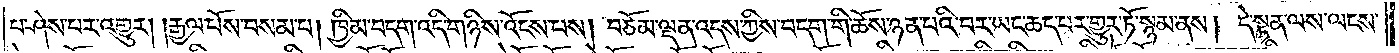པ་ཤེས་པར་འགྱུར། །རྒྱལ་པོས་བསམ་པ། ཁྱིམ་བདག་འདི་གཉིས་འོངས་པས། བཅོམ་ལྡན་འདས་ཀྱིས་བདག་གི་ཆོས་ཉན་པའི་བར་ཡང་ཆད་པར་གྱུར་ཏོ་སྙམ་ནས། དེ་སྟན་ལས་ལངས་
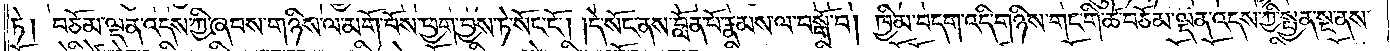ཏེ། བཅོམ་ལྡན་འདས་ཀྱི་ཞབས་གཉིས་ལ་མགོ་བོས་ཕྱག་བྱས་ཏེ་སོང་ངོ༌། །དེ་སོང་ནས་བློན་པོ་རྣམས་ལ་བསྒོ་བ། ཁྱིམ་བདག་འདི་གཉིས་གང་གི་ཚེ་བཅོམ་ལྡན་འདས་ཀྱི་སྤྱན་སྔ་ནས་
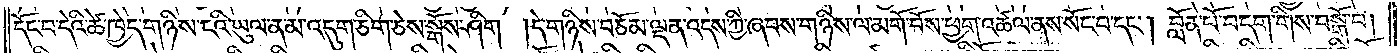དོང་བ་དེའི་ཚེ་ཁྱེད་གཉིས་ངའི་ཡུལ་ན་མ་འདུག་ཅིག་ཅེས་སྒོས་ཤིག །དེ་གཉིས་བཅོམ་ལྡན་འདས་ཀྱི་ཞབས་གཉིས་ལ་མགོ་བོས་ཕྱག་འཚལ་ནས་སོང་བ་དང༌། བློན་པོ་བདག་གིས་བསྒོ་བ།
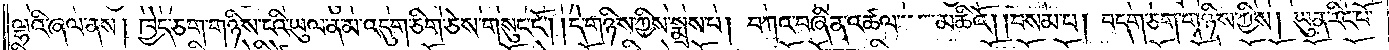ལྷའི་ཞལ་ནས། ཁྱེད་ཅག་གཉིས་ངའི་ཡུལ་ན་མ་འདུག་ཅིག་ཅེས་གསུང་ངོ༌། །དེ་གཉིས་ཀྱིས་སྨྲས་པ། བཀའ་བཞིན་འཚལ་མཆིའོ། །བསམ་པ། བདག་ཅག་གཉིས་ཀྱིས། ཡུན་རིང་པོ་
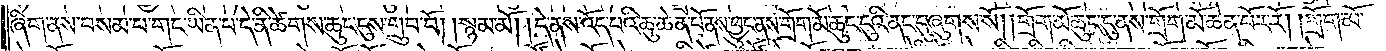ཞིག་ནས་བསམ་པ་གང་ཡིན་པ་དེ་ནི་ཚེགས་ཆུང་དུས་གྲུབ་བོ། །སྙམ་མོ། །དེ་ནས་འོད་པའི་ཆུ་ཆེན་པོ་ནས་ཕྱུང་ནས་གྲོག་མོ་ཆུང་ངུའི་ནང་དུ་ཞུགས་སོ། །གྲོག་མོ་ཆུང་དུ་ནས་གྲོག་མོ་ཆེན་པོར་རོ། །གྲོག་མོ་
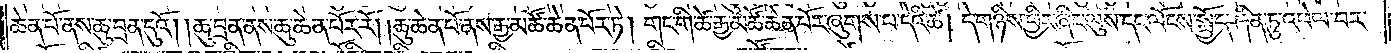ཆེན་པོ་ནས་ཆུ་བྲན་དུའོ། །ཆུ་བྲན་ནས་ཆུ་ཆེན་པོར་རོ། །ཆུ་ཆེན་པོ་ནས་རྒྱ་མཚོ་ཆེན་པོར་ཏེ། གང་གི་ཚེ་རྒྱ་མཚོ་ཆེན་པོར་ཞུགས་པ་དེའི་ཚེ། དེ་གཉིས་ཕྱིར་ཞིང་ལུས་དང་ལོངས་སྤྱོད་ཤིན་ཏུ་འཕེལ་བར་
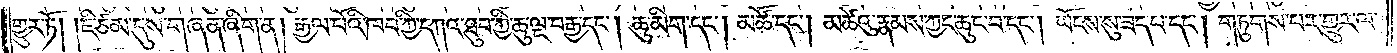གྱུར་ཏོ། །ཇི་ཙམ་དུས་གཞན་ཞིག་ན། རྒྱལ་པོའི་ཁབ་ཀྱི་དཀའ་ཐུབ་ཀྱི་ཆུ་ལྔ་བརྒྱ་དང༌། ཆུ་མིག་དང༌། མཚོ་དང༌། མཚེའུ་རྣམས་ཀྱང་ཆུང་བ་དང༌། ཡོངས་སུ་ཟད་པ་དང༌། གཏུགས་པར་གྱུར་ལ་
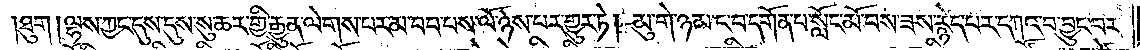ཐུག །ལྷས་ཀྱང་དུས་དུས་སུ་ཆར་གྱི་རྒྱུན་ལེགས་པར་མ་བབ་པས་ལོ་ཉེས་པར་གྱུར་ཏེ། མུ་གེ་ཉམ་ང་བ་དགོན་པ་སློང་མོ་བས་ཟས་རྙེད་པར་དཀའ་བ་བྱུང་བར་
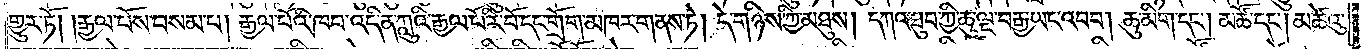གྱུར་ཏོ། །རྒྱལ་པོས་བསམ་པ། རྒྱལ་པོའི་ཁབ་འདི་ན་ཀླུའི་རྒྱལ་པོ་རི་བོ་དང་གྲོག་མཁར་གནས་ཏེ། དེ་གཉིས་ཀྱི་མཐུས། དཀའ་ཐུབ་ཀྱི་ཆུ་ལྔ་བརྒྱ་ཡང་འབབ། ཆུ་མིག་དང༌། མཚོ་དང༌། མཚེའུ་
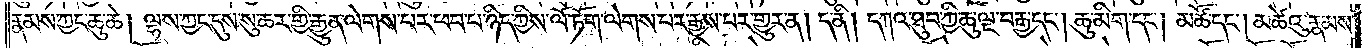རྣམས་ཀྱང་ཆུ་ཆེ། ལྷས་ཀྱང་དུས་སུ་ཆར་གྱི་རྒྱུན་ལེགས་པར་ཕབ་པ་ཉིད་ཀྱིས་ལོ་ཏོག་ལེགས་པར་རྒྱས་པར་གྱུར་ན། ད་ནི། དཀའ་ཐུབ་ཀྱི་ཆུ་ལྔ་བརྒྱ་དང༌། ཆུ་མིག་དང༌། མཚོ་དང༌། མཚེའུ་རྣམས་
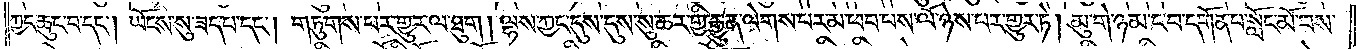ཀྱང་ཆུང་བ་དང༌། ཡོངས་སུ་ཟད་པ་དང༌། གཏུགས་པར་གྱུར་ལ་ཐུག །ལྷས་ཀྱང་དུས་དུས་སུ་ཆར་གྱི་རྒྱུན་ལེགས་པར་མ་ཕབ་པས་ལོ་ཉེས་པར་གྱུར་ཏེ། མུ་གེ་ཉམ་ང་བ་དགོན་པ་སློང་མོ་བས་
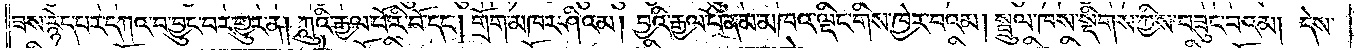ཟས་རྙེད་པར་དཀའ་བ་བྱུང་བར་གྱུར་ན། ཀླུའི་རྒྱལ་པོ་རི་བོ་དང༌། གྲོག་མཁར་ཤིའམ། བྱའི་རྒྱལ་པོ་ནམ་མཁའ་ལྡིང་གིས་ཁྱེར་བའམ། སྦྲུལ་ཁས་སྡིགས་ཀྱིས་བཟུང་བའམ། དེས་
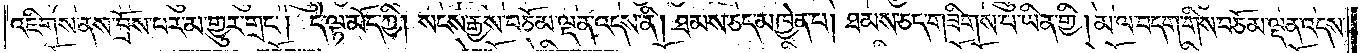འཇིགས་ནས་བྲོས་པར་མ་གྱུར་གྲང༌། དེ་ལྟ་མོད་ཀྱི། སངས་རྒྱས་བཅོམ་ལྡན་འདས་ནི། ཐམས་ཅད་མཁྱེན་པ། ཐམས་ཅད་གཟིགས་པ་ཡིན་གྱི། མ་ལ་བདག་གིས་བཅོམ་ལྡན་འདས་
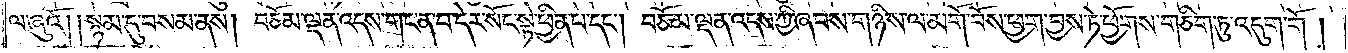ལ་ཞུའོ། །སྙམ་དུ་བསམ་ནས། བཅོམ་ལྡན་འདས་གང་ན་བ་དེར་སོང་སྟེ་ཕྱིན་པ་དང༌། བཅོམ་ལྡན་འདས་ཀྱི་ཞབས་གཉིས་ལ་མགོ་བོས་ཕྱག་བྱས་ཏེ་ཕྱོགས་གཅིག་ཏུ་འདུག་གོ །
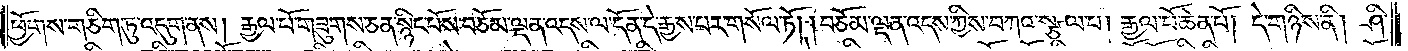ཕྱོགས་གཅིག་ཏུ་འདུག་ནས། རྒྱལ་པོ་གཟུགས་ཅན་སྙིང་པོས་བཅོམ་ལྡན་འདས་ལ་དོན་དེ་རྒྱས་པར་གསོལ་ཏོ། །བཅོམ་ལྡན་འདས་ཀྱིས་བཀའ་སྩལ་པ། རྒྱལ་པོ་ཆེན་པོ། དེ་གཉིས་ནི། ཤི་
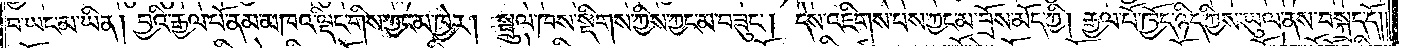བ་ཡང་མ་ཡིན། བྱའི་རྒྱལ་པོ་ནམ་མཁའ་ལྡིང་གིས་ཀྱང་མ་ཁྱེར། སྦྲུལ་ཁས་སྡིགས་ཀྱིས་ཀྱང་མ་བཟུང༌། དེས་འཇིགས་པས་ཀྱང་མ་བྲོས་མོད་ཀྱི། རྒྱལ་པོ་ཁྱོད་ཉིད་ཀྱིས་ཡུལ་ནས་བསྐྲད་དོ། །
